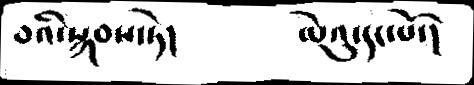བའི་སྐབས་ཏེ།      ལེའུ་དང་པོ་།
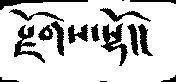རྫོགས་སྷོ།།
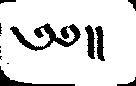༄༅།།
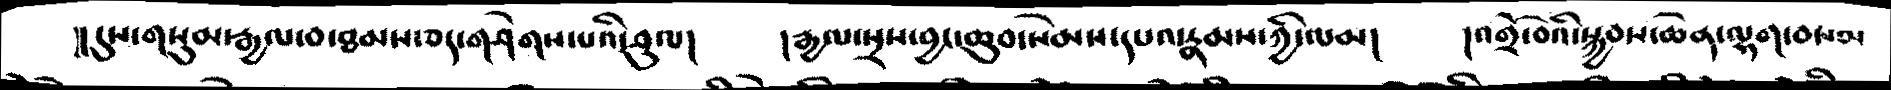།།དུས་གསུམ་རྒྱལ་བ་ཐམས་ཅད་གཤེགས་པའི་ཤུལ།   །རྒྱལ་སྲས་བྱང་ཆུབ་སེམས་དཔའ་རྣམས་ཀྱི་ལམ།    །འགྲོ་བའི་སྐྱབས་ཆེན་ལྷག་བསམ
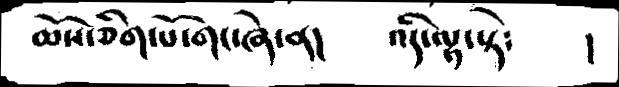ཆོས་ཅིག་པོ་གང་ཞེ་ན།    འདི་ལྟ་སྟེ༴     །
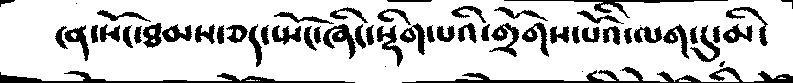ངན་སོང་ཐམས་ཅད་སྤོང་ཞིང་སྡིག་པའི་གྲོགས་པོའི་ལག་དུ་མི་
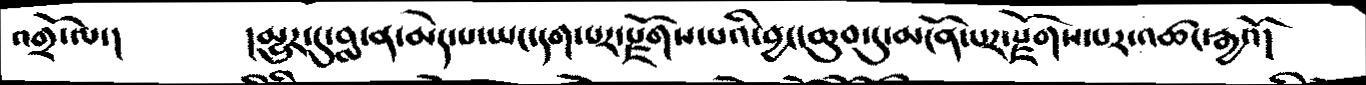འགྲོ་ལ་།      །མྱུར་དུ་བླ་ན་མེད་པ་ཡང་དག་པར་རྫོགས་པའི་བྱང་ཆུབ་དུ་མངོན་པར་རྫོགས་པར་འཚང་རྒྱའོ།
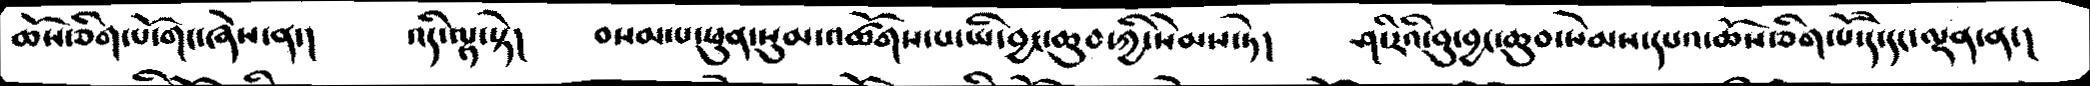ཆོས་ཅིག་པོ་གང་ཞེས་ན་།   འདི་ལྟ་སྟེ།   བསམ་པ་ཕུན་སུམ་འཚོགས་པ་ཡི་བྱང་ཆུབ་ཀྱི་སེམས་ཏེ།   ཤ་རིའི་བུ་བྱང་ཆུབ་སེམས་དཔའ་ཆོས་ཅིག་པོ་དེ་དང་ལྡན་ན་།
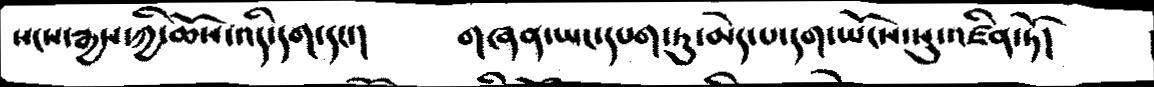སངས་རྒྱས་ཀྱི་ཆོས་འདི་དག་དང་།   གཞན་ཡང་དཔག་ཏུ་མེད་པ་དག་ཡོངས་སུ་འཛིན་ཏོ།
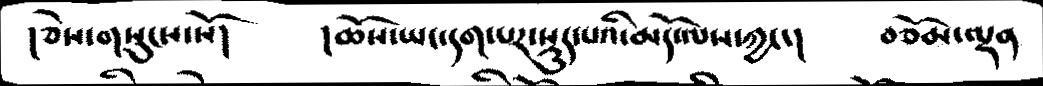།ཅེས་གསུངས་སོ།   །ཆོས་ཡང་དག་པར་སྡུད་པའི་མདོ་ལས་ཀྱང་།   བཅོམ་ལྡན
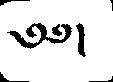༄༅།
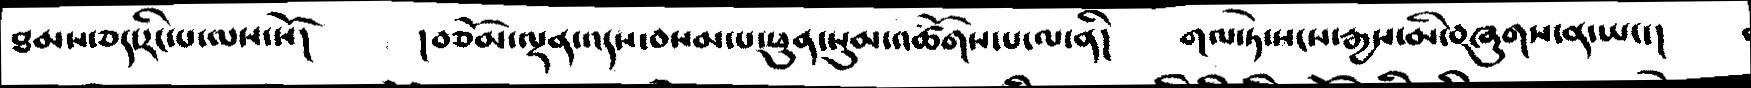ཐམས་ཅད་རིང་པ་ལས་སོ།    །བཅོམ་ལྡན་འདས་བསམ་པ་ཕུན་སུམ་འཚོགས་པ་ལ་ནི།   གལ་ཏེ་སངས་རྒྱས་མི་བཞུགས་ན་ཡང་།
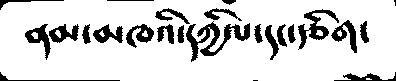ནམ་མཁའི་དཀྱིལ་དང་རྩིག་
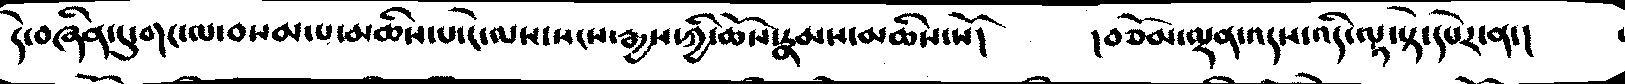དེ་བཞིན་དུ་གང་ལ་བསམ་པ་མཆིས་པ་ངེ་ལས་སངས་རྒྱས་ཀྱི་ཆོས་རྣམས་མཆིས་སོ།   །བཅོམ་ལྡན་འདས་འདི་ལྟ་སྟེ་དཔེར་ན་།
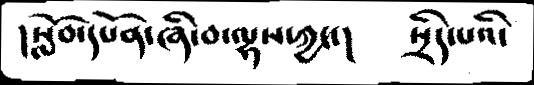།སློབ་དཔོན་ཞི་བ་ལྷས་ཀྱང་།    སྲིད་པའི་
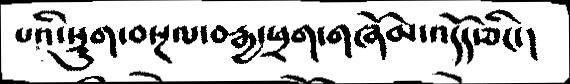པའི་སྡུག་བསྔལ་བརྒྱ་ཕྲག་གཞོམ་འདོད་ཅིང་།
